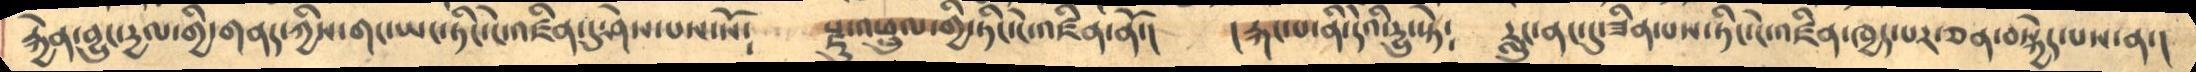རྐྱེན་བྱུང་དྱལ་གྱི་གནད་ཀྱིས་གང་ཡང་ཏིང་ངེ་འཛིན་དུ་ཤེས་པས་སོ༴     རྫུ་འཕྲུལ་གྱི་ཏིང་ངེ་འཛིན་ནོ་།    །རྐང་པ་ནི་དེའི་དྱུ་སྟེ༴   རླུང་ནང་དུ་ཟིན་པས་ཏིང་ངེ་འཛིན་ཁྱད་པར་ཅན་བསྐྱེད་པས་ན་།
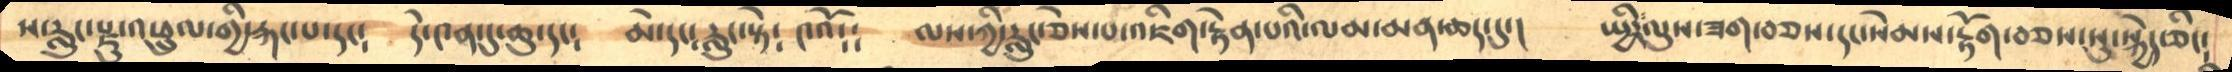ས་རླུང་རྫུ་འཕྲུལ་གྱི་རྐང་པ་དང༴   དེ་༤ན་དུ་ཆུ་དང༴    མེ་དང་རླུང་སྟེ༴  ༤འོ༴༴   ལས་ཀྱི་རླུང་ཅེས་པ་འཇིག་རྟེན་པའི་ལམ་མན་ཆད་དུ་།    སྤྱི་ལུས་ཟག་བཅས་དང་སེམས་རྟོག་བཅས་སུ་སྐྱེད་ཅིང༴
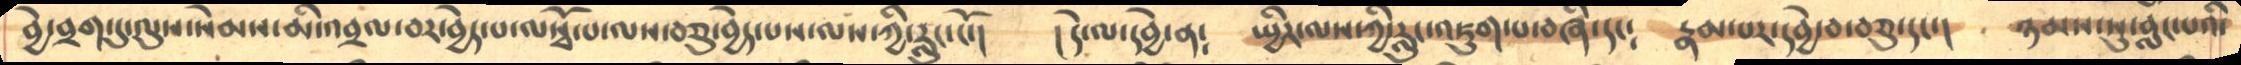བྱེ་བྲག་དུ་ལུས་སེམས་མི་འབྲལ་བར་བྱེད་པ་ལསྭོ་པ་ལས་བཅུ་བྱེད་པས་ལས་ཀྱི་རླུང་ངོ་།    །དེ་ལ་དབྱེ་ན༴   སྤྱིར་ལས་ཀྱི་རླུང་འཇུག་པ་བཞི་དང༴    རྣམ་པར་དབྱེ་བ་བཅུ་དང་།   ཉམས་སུ་བླང་པའི་
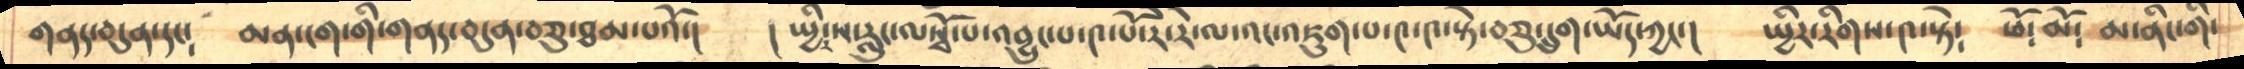གནད་བདུན་དང༴    མན་ངག་གི་གནད་བདུན་བཅུ་ཐམ་པའོ་།    །སྤྱིར་ས་རླུང་ལསྭོ་པ་འབྱུང་པ་༤་པོ་རེ་རེ་ལ་འང་འཇུག་པ་༤་༤་སྟེ་བཅུ་དྲུག་ཡོད་ཀྱང་།   སྤྱིར་རིགས་༤་སྟེ༴    ཕོ༴མོ༴  མ་ནིང་གི་
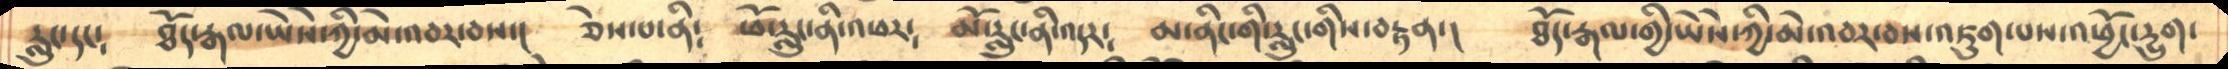རླུང་དང༴    ཐོད་རྒལ་ཡཻས་ཀྱི་མེ་འབར་བས་།    ཅེས་པ་ནི༴    ཕོ་རླུང་ནི་འཕར༴  མོ་རླུང་ནི་འདར༴    མ་ནིང་གི་རླུང་གིས་བརྟན་།   ཐོད་རྒལ་གྱི་ཡཻས་ཀྱི་མེ་འབར་བས་འཇུག་པས་འཕྱོང་དྱུག་
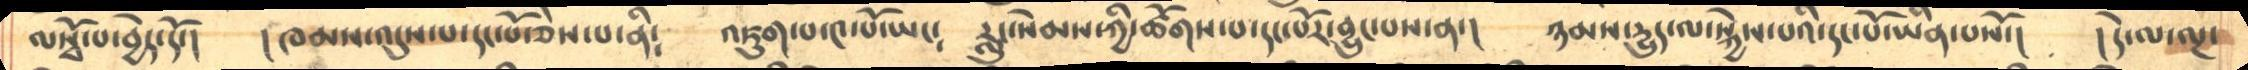ལསྭོ་པ་བྱེད་དོ་།    །ཁམས་འདུས་པ་དང་པོ་ཅེས་པ་ནི༴   འཇུག་པ་༤་པོ་ཡང༴   རླུང་སེམས་ཀྱི་ཚོགས་པ་དང་པོར་བྱུང་པས་ན་།  ཉམས་དྱུད་ལ་སྐྱེས་པའི་དང་པོ་ཡིན་པསོ་།   །དེ་ལ་ལྔ་
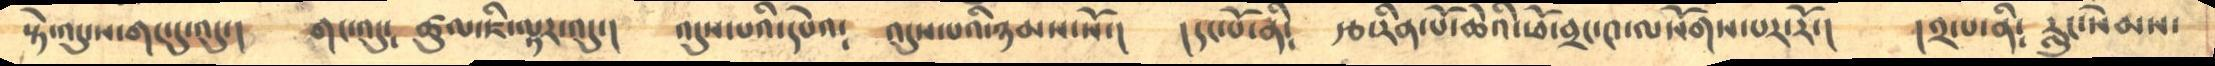སྟེ་འདུ་ས་གང་དུ་འདུ་།   གང་འདུ༴  ཚུལ་ཇི་ལྟར་འདུ་།    འདུས་པའི་དཔེའ༴    འདུས་པའི་ཉམས་སོ་།    །དང་པོ་ནི༴  རྩ་རིན་པོ་ཆེའི་ཕོ་བྲང་༤་ལསོགས་པར་རོ་།   །༢་པ་ནི༴  རླུང་སེམས་
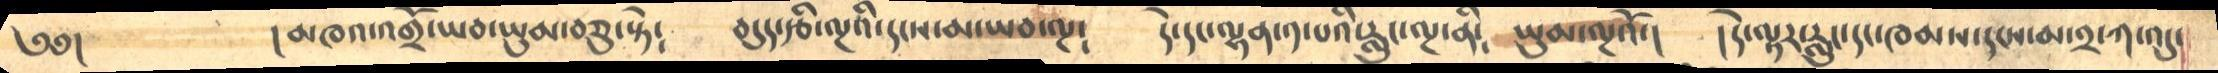༄༅།            །མཁའ་འགྲོ་ཡབ་ཡུམ་བཅུ་སྟེ༴    བདུད་རྩི་ལྔའི་དངས་མ་ཡབ་ལྔ༴    དེ་དང་ལྷན་༡་པའི་རླུང་ལྔ་ནི༴  ཡུམ་ལྔའོ་།   །དེ་ལྟར་རླུང་དང་ཁམས་དངས་མ་༢་ཀ་འདུ་
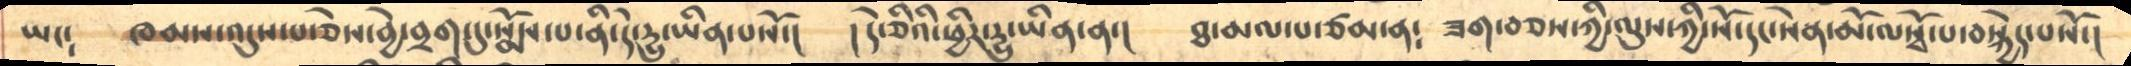ཡང༴   ཁམས་འདུས་པ་ཅེས་བྱེ་བྲག་དུ་སྨོས་པ་ནི་དེ་དྱུ་ཡིན་པསོ་།   །དེ་ཅིའི་ཕྱིར་དྱུ་ཡིན་ན་།   ཐ་མལ་པ་ཙམ་ན༴  ཟག་བཅས་ཀྱི་ལུས་ཀྱི་སོ་དང་སེན་མོ་ལསྭོ་པ་བསྐྱེད་པསོ་།
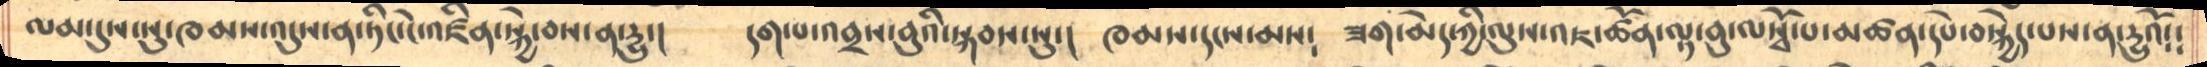ལམ་དུས་སུ་ཁམས་འདུས་ན་ཏིང་ངེ་འཛིན་སྐྱེ་བས་ན་དྱུ་།      དག་པ་འབྲས་བུའི་སྐབས་སུ་།    ཁམས་དངས་མས༴  ཟག་མེད་ཀྱི་ལུས་འཇ་ཚོན་ལྟ་བུ་ལསྭོ་པ་མཚན་དཔེ་བསྐྱེད་པས་ན་དྱུའོ༴༴
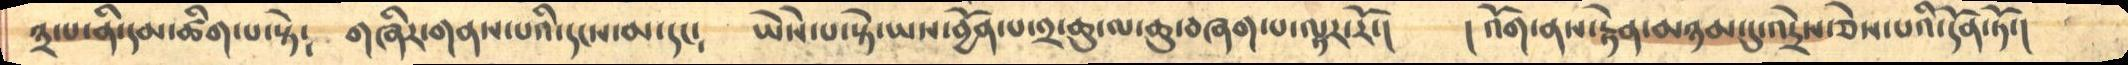༣་པ་ནི་དམ་ཚིག་པ་སྟེ༴    གཞིར་གནས་པའི་དངས་མ་དང༴    ཡཻས་པ་སྟེ་ཡས་བྱོན་པ་༢་ཆུ་ལ་ཆུ་བཞག་པ་ལྟར་རོ་།   །འོག་ནས་རྟེན་མཉམ་དུ་འདྲེས་ཅེས་པའི་དོན་ཏོ་།
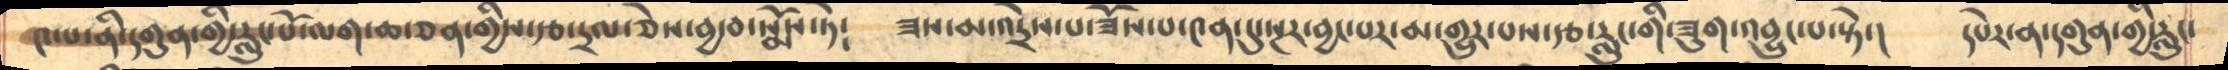༤་པ་ནི་དགུན་གྱི་རླུང་པོ་ལག་ཆ་ཅན་གྱིས་རྩ་དྲལ་ཅེས་བྱ་བ་སྨོས་ཏེ༴    ཟས་མ་འདྲེས་པ་ཟོས་པ་༤ན་དུ་སྔར་བྱང་པར་མ་གྱུར་པས་རྩ་རླུང་གི་ཟུག་འབྱུང་པ་སྟེ་།   དཔེར་ན་དགུན་གྱི་རླུང་
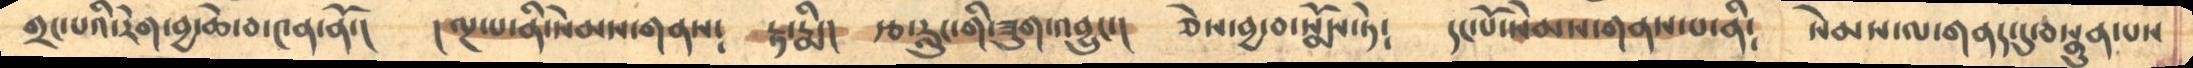གྲང་པའི་རེག་བྱ་ཆེ་བ་༤ན་ནོ་།     །ལྔ་པ་ནི་སེམས་གནས༴   རྟ་རྨི་།  རྩ་རླུང་གི་ཟུག་འབྱུང་།    ཅེས་བྱ་བ་སྨོས་ཏེ༴   དང་པོ་སེམས་གནས་པ་ནི༴    སེམས་ལ་གནད་དུ་བསྣུན་པས
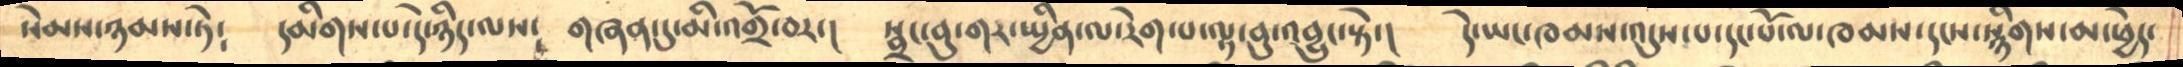སེམས་ཉམས་ཏེ༴    དམིགས་པ་དེ་ཉིད་ལས༴   གཞན་དུ་མི་འགྲོ་བར་།   སྦྲང་བུ་གར་སྤྱིན་ལ་རེག་པ་ལྟ་བུ་འབྱུང་སྟེ་།    དེ་ཡང་ཁམས་འདུས་པ་དང་པོ་ལ་ཁམས་དངས་སྙིགས་མ་ཕྱེད་
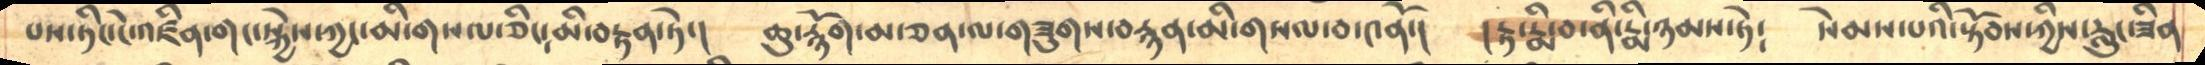པས་ཏིང་ངེ་འཛིན་གང་སྐྱེས་ཀྱང་མི་གསལ་ཅིང་མི་བརྟན་ཏེ་།    ཆུ་རྙོག་མ་ཅན་ལ་གཟུགས་བརྙན་མི་གསལ་བ་༤ནོ་།     །རྟ་རྨི་བ་ནི་རྨི་ཉམས་ཏེ༴    སེམས་པའི་སྟོབས་ཀྱིས་རླུང་ཟིན
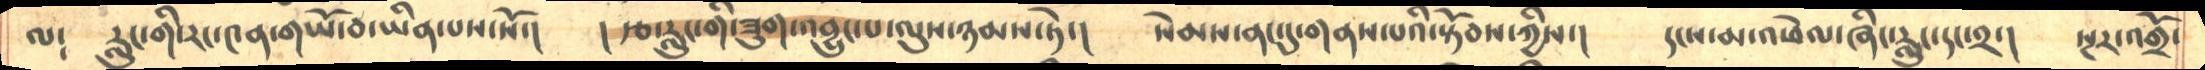ལ༴    རླུང་གི་རང་༤ན་གཡོ་བ་ཡིན་པས་སོ་།   ། རྩ་རླུང་གི་ཟུག་འབྱུང་པ་ལུས་ཉམས་ཏེ་།    སེམས་ནང་དུ་གནས་པའི་སྟོབས་ཀྱིས་།   དངས་མ་འཕེལ་ཞིང་རླུང་དང་༢་།   སྔར་འགྲོ་
